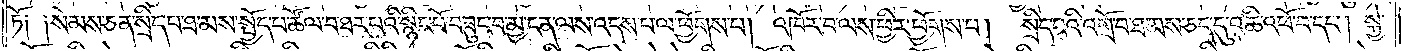ཏོ༑ ༑སེམས་ཅན་སྲིད་པ་ཐ་མས་སྤྱོད་པ་ཚོལ་བ་ཐར་པའི་སྙིང་པོ་བཟུང་བ་མྱ་ངན་ལས་འདས་པ་ལ་ཕྱོགས་པ། འཁོར་བ་ལས་ཕྱིར་ཕྱོགས་པ།  སྲིད་པའི་འགྲོ་བ་ཐམས་ཅད་དུ་འཆི་འཕོ་བ་དང༌། སྐྱེ་
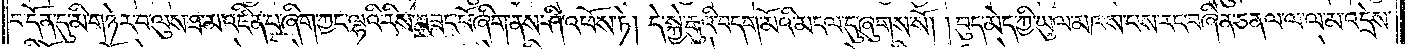བ་དོན་དུ་མི་གཉེར་བ་ལུས་ཐ་མ་འཛིན་པ་ཞིག་ཀྱང་ལྷའི་རིས་བཟང་པོ་ཞིག་ནས་ཤི་འཕོས་ཏེ། དེ་སྐྱེ་རྒུའི་བདག་མོའི་མངལ་དུ་ཞུགས་སོ། །བུད་མེད་ཀྱི་ཡུལ་མཁས་པས་རང་བཞིན་ཅན་ལ་ལ་ལ་མ་འདྲེས་
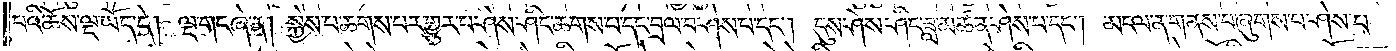པའི་ཆོས་ལྔ་ཡོད་དེ། ལྔ་གང་ཞེ་ན། སྐྱེས་པ་ཆགས་པར་གྱུར་པ་ཤེས་ཤིང་ཆགས་པ་དང་བྲལ་བ་ཤེས་པ་དང༌། དུས་ཤེས་ཤིང་ཟླ་མཚན་ཤེས་པ་དང༌། མངལ་ན་གནས་པ་ཞུགས་པ་ཤེས་པ་
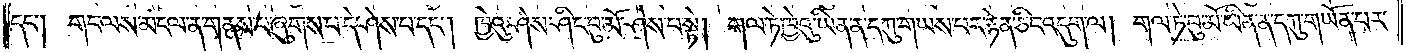དང་༑ གང་ལས་མངལ་ན་གནས་པ་ཞུགས་པ་དེ་ཤེས་པ་དང༌། ཁྱེའུ་ཤེས་ཤིང་བུ་མོ་ཤེས་པ་སྟེ། གལ་ཏེ་ཁྱེའུ་ཡིན་ན་དཀུ་གཡས་པར་རྟེན་ཅིང་འདུག་ལ། གལ་ཏེ་བུ་མོ་ཡིན་ན་དཀུ་གཡོན་པར་
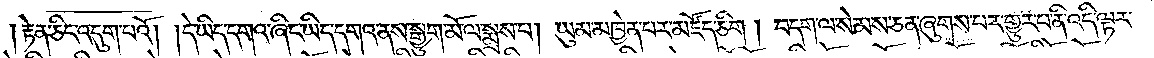རྟེན་ཅིང་འདུག་པའོ། །དེ་ཡིད་དགའ་ཞིང་ཡིད་དགའ་ནས་སྒྱུག་མོ་ལ་སྨྲས་པ། ཡུམ་མཁྱེན་པར་མཛོད་ཅིག །བདག་ལ་སེམས་ཅན་ཞུགས་པར་གྱུར་པ་ནི་འདི་ལྟར་
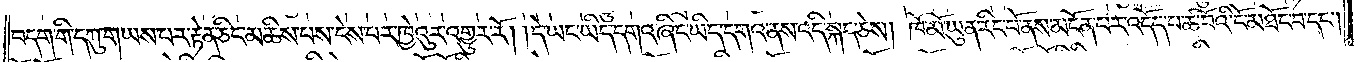བདག་གི་དཀུ་གཡས་པར་རྟེན་ཅིང་མཆིས་པས་ངེས་པར་ཁྱེའུར་འགྱུར་རོ། །དེ་ཡང་ཡིད་དགའ་ཞིང་ཡིད་དགའ་ནས་འདི་སྐད་ཅེས། ཁོ་མོ་ཡུན་རིང་པོ་ནས་མངོན་པར་འདོད་པ་ཚ་བོའི་ངོ་མཐོང་བ་དང༌།
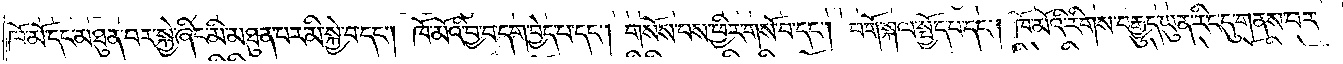ཁོ་མོ་དང་མཐུན་པར་སྐྱེ་ཞིང་མི་མཐུན་པར་མི་སྐྱེ་བ་དང༌། ཁོ་མོའི་བྱ་བ་དག་བྱེད་པ་དང༌། གསོས་པས་ཕྱིར་གསོ་བ་དང༌། བགོ་སྐལ་སྤྱོད་པ་དང༌། ཁོ་མོའི་རིགས་བརྒྱུད་ཡུན་རིང་དུ་གནས་བར་
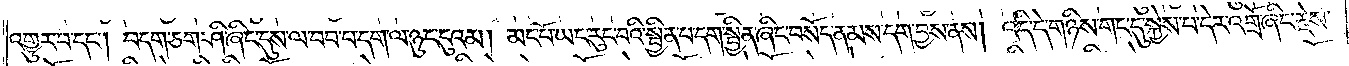འགྱུར་པ་དང༌། བདག་ཅག་ཤི་ཞིང་དུས་ལ་བབ་པ་དག་ལ་ཉུང་ངུའམ། མང་པོ་ཡང་རུང་བའི་སྦྱིན་པ་དག་སྦྱིན་ཞིང་བསོད་ནམས་དག་བྱས་ནས། འདི་དེ་གཉིས་གང་དུ་སྐྱེས་པ་དེར་འགྲོ་ཞིང་རྗེས་
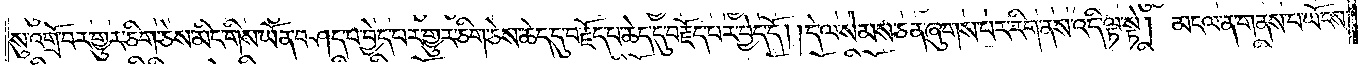སུ་འགྲོ་བར་གྱུར་ཅིག་ཅེས་མིང་གིས་ཡོན་བཤད་པ་བྱེད་བར་གྱུར་ཅིག་ཅེས་ཆེད་དུ་བརྗོད་པ་ཆེད་དུ་བརྗོད་པར་བྱེད་དོ། །དེ་ལ་སེམས་ཅན་ཞུགས་པར་རིག་ནས་འདི་ལྟ་སྟེ། མངལ་ན་གནས་པ་ཡོངས་
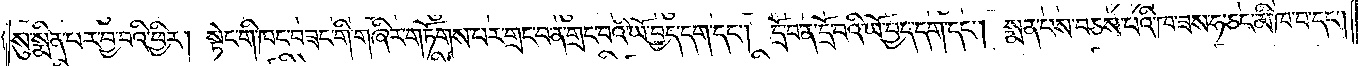སུ་སྨིན་པར་བྱ་བའི་ཕྱིར། སྟེང་གི་ཁང་བཟང་གི་གཞིར་གཏོགས་པར་གྲང་བ་ན་གྲང་བའི་ཡོ་བྱད་དག་དང༌། དྲོ་བ་ན་དྲོ་བའི་ཡོ་བྱད་དག་དང༌། སྨན་པས་བཅས་པའི་ཁ་ཟས་ཧ་ཅང་མི་ཁ་བ་དང༌།
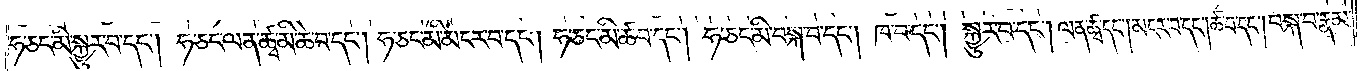ཧ་ཅང་མི་སྐྱུར་བ་དང༌། ཧ་ཅང་ལན་ཚྭ་མི་ཆེ་བ་དང༌། ཧ་ཅང་མི་མངར་བ་དང༌། ཧ་ཅང་མི་ཚ་བ་དང༌། ཧ་ཅང་མི་བསྐ་བ་དང༌། ཁ་བ་དང༌། སྐྱུར་བ་དང༌། ལན་ཚྭ་དང༌། མངར་བ་དང༌། ཚ་བ་དང༌། བསྐ་བ་རྣམ་
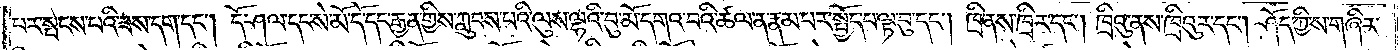པར་སྤངས་པའི་ཟས་དག་དང༌། དོ་ཤལ་དང་སེ་མོ་དོ་དང་རྒྱན་གྱིས་ཀླུབས་པའི་ལུས་ལྷའི་བུ་མོ་དགའ་བའི་ཚལ་ན་རྣམ་པར་སྤྱོད་པ་ལྟ་བུ་དང༌། ཁྲི་ནས་ཁྲིར་དང༌། ཁྲིའུ་ནས་ཁྲིའུར་དང༌། ཤོད་ཀྱིས་གཞིན་
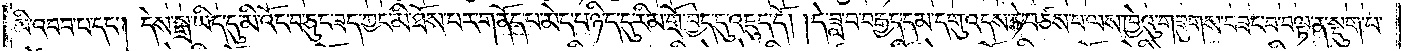མི་འབབ་པ་དང༌། དེས་སྒྲ་ཡིད་དུ་མི་འོང་བ་ཅུང་ཟད་ཀྱང་མི་ཐོས་པར་གནོད་པ་མེད་པ་ཉིད་དུ་རིམ་གྲོ་བྱེད་དུ་འཇུད་དོ། །དེ་ཟླ་བ་བརྒྱད་དམ་དགུ་འདས་ཏེ་བཙས་པ་ལས་ཁྱེའུ་གཟུགས་བཟང་བ་བལྟ་ན་སྡུག་པ་
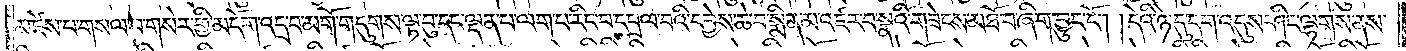མཛེས་པ་གསལ་བ་གསེར་གྱི་མདོག་འདྲ་བ་མགོ་གདུགས་ལྟ་བུ་དང་ལྡན་པ་ལག་པ་རིང་བ་དཔྲལ་བའི་དབྱེས་ཆེ་བ་སྨིན་མ་འཛར་བ་སྣའི་གཟེངས་མཐོ་བ་ཞིག་བྱུང་ངོ༌། །དེའི་ཉེ་དུ་དག་འདུས་ཤིང་ལྷགས་ནས་
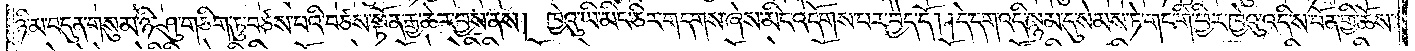ཉི་མ་བདུན་གསུམ་ཉི་ཤུ་གཅིག་ཏུ་བཙས་པའི་བཙས་སྟོན་རྒྱ་ཆེར་བྱས་ནས། ཁྱེའུ་ཡི་མིང་ཅིར་གདགས་ཞེས་མིང་འདོགས་པར་བྱེད་དོ། །དེ་དག་འདི་སྙམ་དུ་སེམས་ཏེ་གང་གི་ཕྱིར་ཁྱེའུ་འདི་ས་བོན་གྱི་ཆོས་
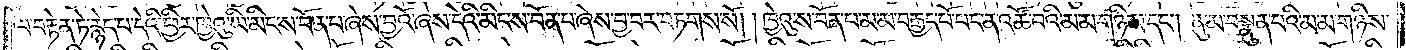ལ་བརྟེན་ཏེ་རྙེད་པ་དེའི་ཕྱིར་ཁྱེའུ་ཡི་མིང་ས་བོན་པ་ཞེས་བྱའོ་ཞེས་དེའི་མིང་ས་བོན་པ་ཞེས་བྱ་བར་བཏགས་སོ། །ཁྱེའུ་ས་བོན་པ་མ་མ་བརྒྱད་པོ་པང་ན་འཚོ་བའི་མ་མ་གཉིས་དང༌། ནུ་མ་བསྣུན་པའི་མ་མ་གཉིས་
